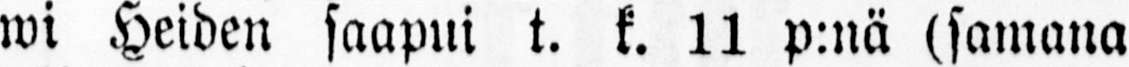wi Heiden saapui t. k. 11 p:nä (samana
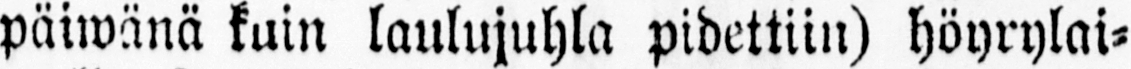päiwänä kuin laulujuhla pidettiin) höyrylai-
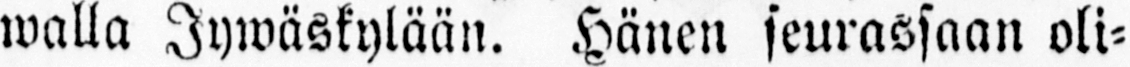walla Jywäskylään. Hänen seurassaan oli-
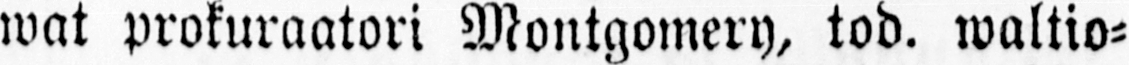wat prokuraatori Montgomery, tod. waltio-
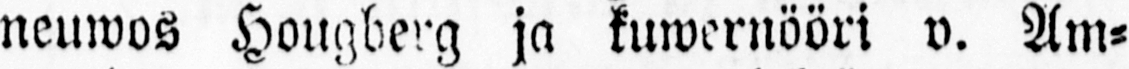neuwos Hougberg ja kuwernööri v. Am-
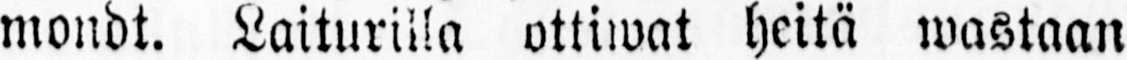mondt. Laiturilla ottiwat heitä wastaan
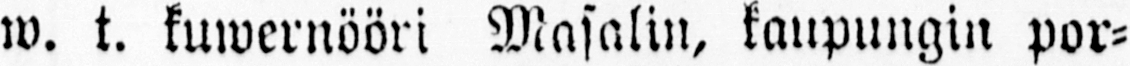w. t. kuwerööri Masalin, kaupungin por-
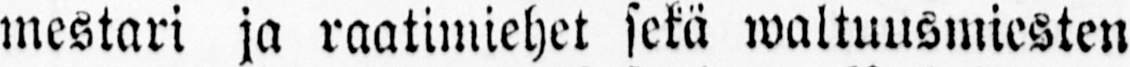mestari ja raatimiehet setä waltuusmiesten
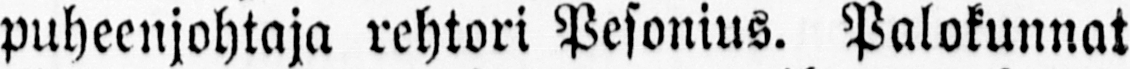puheenjohtaja rehtori Pesonius. Palokunnat
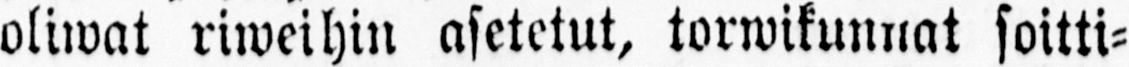oliwat riweihin asetetut, torwikunnat soitti-
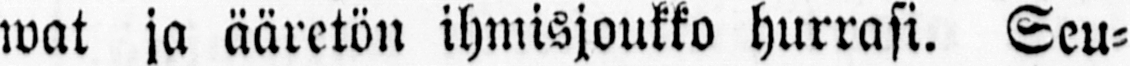wat ja ääretön ihmisjoukko hurrasi. Seu-
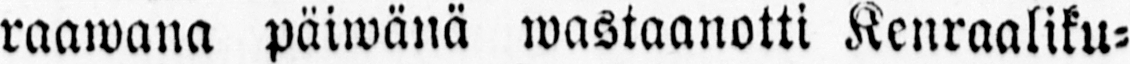raawana päiwänä wastaanotti Kenraaliku-
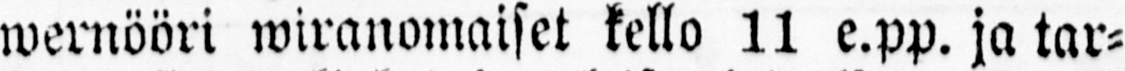wernööri wiranomaiset kello 11 e.pp. ja tar-
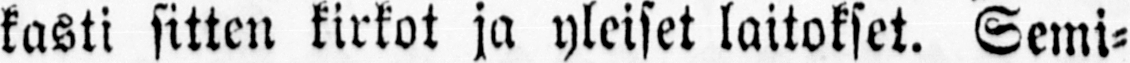kasti sitten kirkot ja yleiset laitokset. Semi-
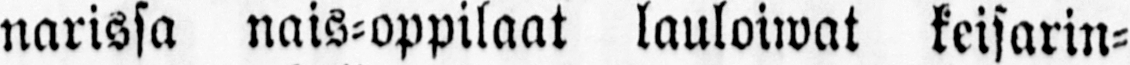narissa nais-oppilaat lauloiwat keisarin-
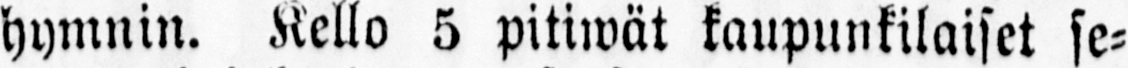hymnin. Kello 5 pitiwät kaupunkilaiset se-
